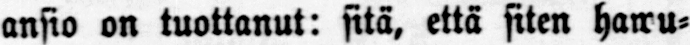ansio on tuottanut: sitä, että siten hawu-
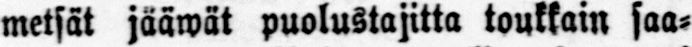metsät jääwät puolustajitta toukkain saa-
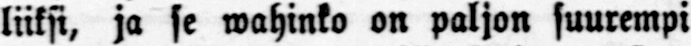liiksi, ja se wahinko on paljon suurempi
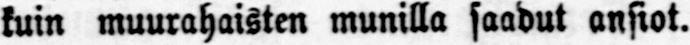kuin muurahaisten munilla saadut ansiot.
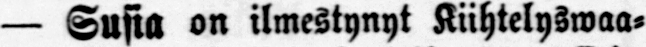— Susia on ilmestynyt Kiihtelyswaa-
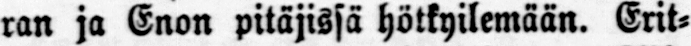ran ja Enon pitäjissä hötkyilemään. Erit-
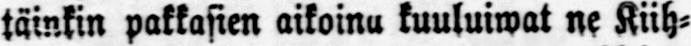täinkin pakkasien aikoina kuuluiwat ne Kiih-
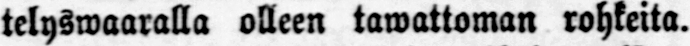telyswaaralla olleen tawattoman rohkeita.
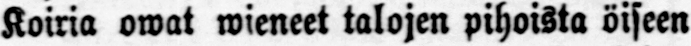Koiria owat wieneet talojen pihoista öiseen
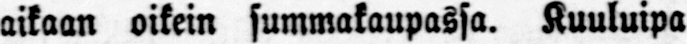aikaan oikein summakaupassa. Kuuluipa
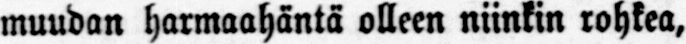muudan harmaahäntä olleen niinkin rohkea,
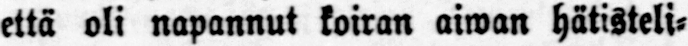että oli napannut koiran aiwan hätisteli-
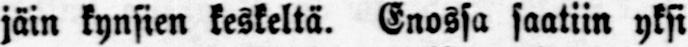jäin kynsien keskeltä. Enossa saatiin yksi
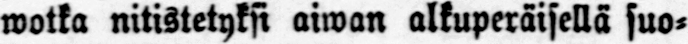wotka nitistetyksi aiwan alkuperäisellä suo-
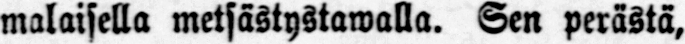malaisella metsästystawalla. Sen perästä,
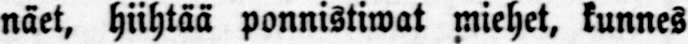näet, hiihtää ponnistiwat miehet, kunnes
